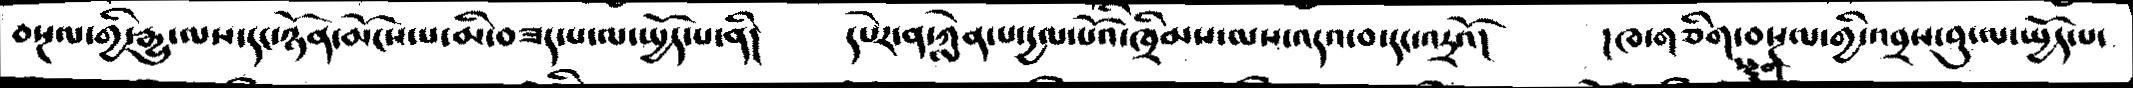བསྔལ་གྱི་རྒྱུ་ལས་དང་ཉོན་མོངས་པ་མི་བཟད་པ་ལ་སྤྱོད་པ་ནི།   དཔེར་ན་ཀླེན་པ་དྱལ་པོའི་ཁྲིམས་ལས་འདའ་བ་དང་འདྲའོ།   །ཁ་གཅིག་སྡུག་བསྔལ་གྱི་འབྲས་བུ་ལ་སྤྱོད་པ་
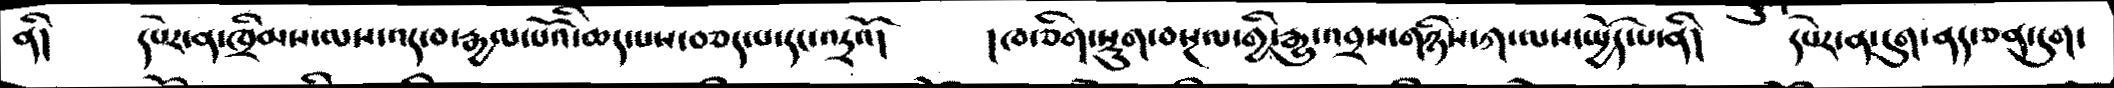ནི།   དཔེར་ན་ཁྲིམས་ལས་འད་བ་རྒྱལ་པོའི་ཆད་པས་བཅད་པ་དང་འདྲའོ།   །ཁ་ཅིག་སྡུག་བསྔལ་གྱི་རྒྱུ་འབྲས་གཉིས་ཀ་ལས་སྤྱོད་པ་ནི།   དཔེར་ན་དུག་ནད་ཅན་དུག་
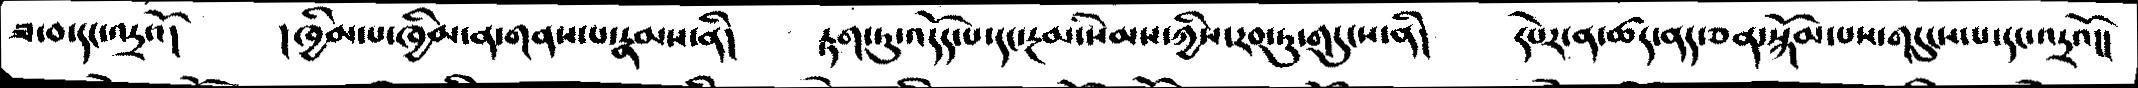ཟ་བ་དང་འདྲའོ།   །ཁྱིམ་པ་ཁྱིམ་ན་གནས་པ་རྣམས་ནི།   རྟག་ཏུ་འདོད་པ་དང་རྔམ་སེམས་ཀྱིས་རབ་ཏུ་གདུངས་ནི།   དཔེར་ན་ཚད་ནད་ཅན་སྐོམ་པས་གདུངས་པ་དང་འདྲའོ།།
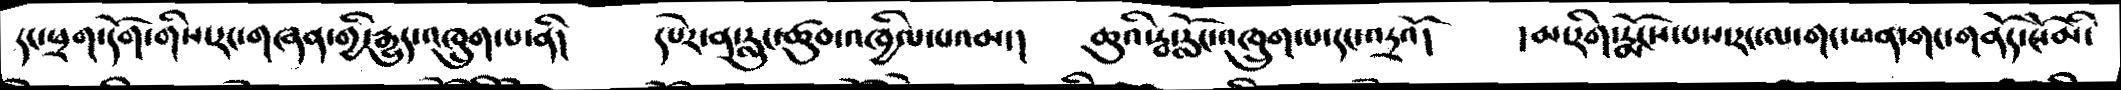དང་ཕྲག་དོག་གིས་རང་གཞན་གྱི་རྒྱུད་འཁྲུག་པ་ནི།   དཔེར་ན་རླུང་ཚུབ་འཁྱིལ་པའམ་།    ཆུའི་རྦ་རློང་འཁྲུག་པ་དང་འདྲའོ།    །མ་རིག་རྨོངས་པས་རང་ལ་གང་ཕན་གང་གནོད་ངོ་མི་
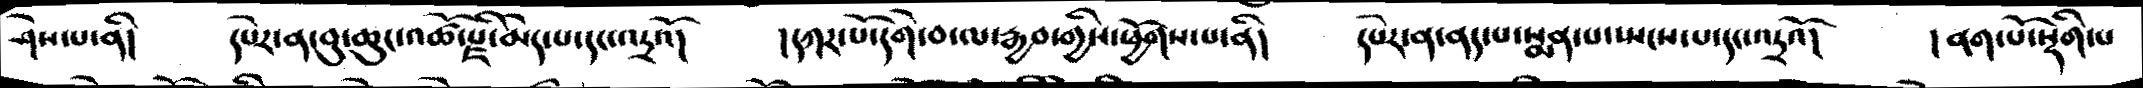ཤེས་པ་ནི།    དཔེར་ན་བུ་ཆུང་འཚོ་རྫི་མེད་པ་དང་འདྲའོ།   །དཀར་པོ་དགེ་བ་ལ་རྒྱབ་གྱིས་ཕྱོགས་པ་ནི།   དཔེར་ན་ནད་པ་སྨན་པ་སྤངས་པ་དང་འདྲའོ།    །ནག་པོ་སྡིག་པ་
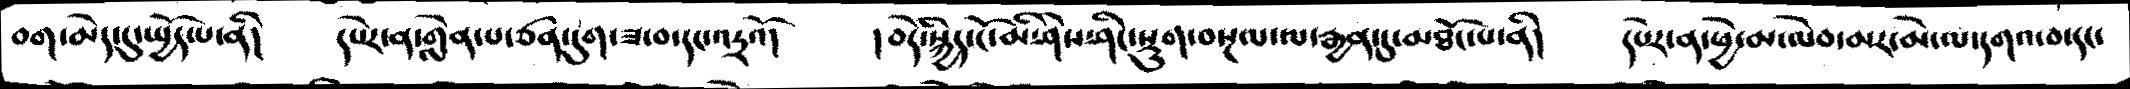བག་མེད་དུ་སྤྱོད་པ་ནི།    དཔེར་ན་གླེན་པ་ཙན་དུག་ཟ་བ་དང་འདྲའོ།   །བདེ་སྐྱིད་ངོ་མི་ཤེས་ཤིང་སྡུག་བསྔལ་ལ་རྒྱབ་དུ་མཐོང་པ་ནི།    དཔེར་ན་ཕྱེ་མ་ལེབ་མར་མེ་ལ་དགའ་བ་དང་
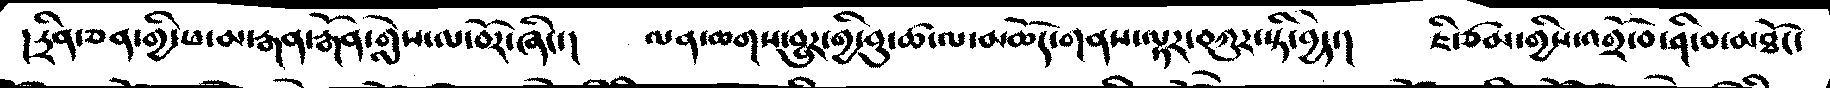།དྲིན་ཅན་གྱི་ཕ་མ་རྒན་རྒོན་གླེས་ལ་བོར་ཞིང་།   ལན་ཆགས་བྱུར་གྱི་བུ་ཚ་ལ་མཆོད་གནས་ལྟར་བཀུར་སྟི་བྱེད་།   ཇི་ཙམ་གྱིས་འགྲོ་བ་ཤི་བ་མཐོང་
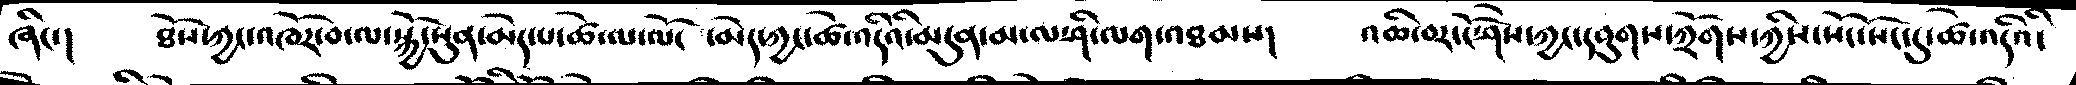ཞིང་།   ཐོས་ཀྱང་འཁོར་བ་ལ་སྐྱོ་སུན་མེད་པ་ཚེ་ལ་ལོང ་མེད་ཀྱང་ཚེ་འདིའི་མདུན་མ་ལ་ཤི་ལག་འཐམས།   འཆི་བར་ངོ་ཤེས་ཀྱང་དབུགས་ཀྲོགས་ཀྱིས་སོང་སོང་དུ་ཚེ་འདིའི་
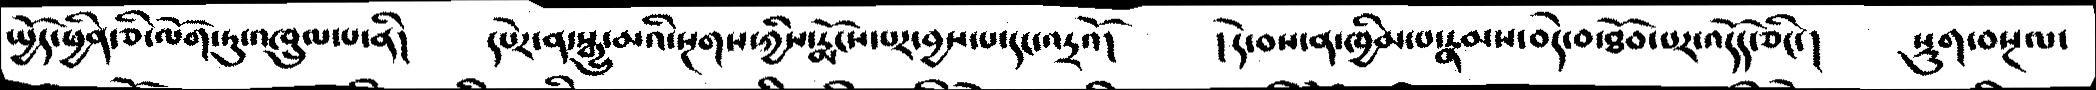སྤྱོད་ཕྱིན་ཅི་ལོག་ཏུ་འཁྲུལ་པ་ནི།   དཔེར་ན་སྒྱུ་མའི་སྔགས་ཀྱིས་རྨོངས་པར་བྱས་པ་དང་འདྲའོ།   །དེ་བས་ན་ཁྱིམ་པ་རྣམས་བདེ་བ་ཐོབ་པར་འདོད་ཅིང་།   སྡུག་བསྔལ་
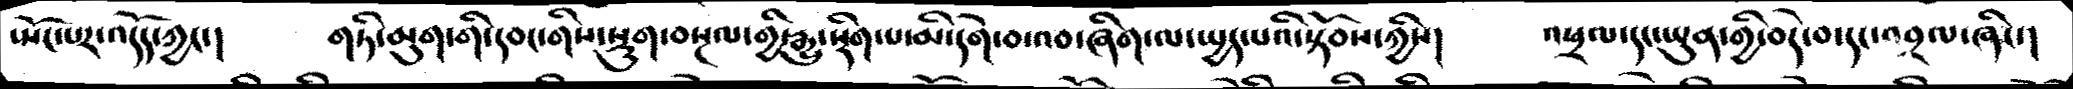སྤོང་པར་འདོད་ཀྱང་།   གཏི་མུག་གི་དབང་གིས་སྡུག་བསྔལ་གྱི་རྒྱུ་སྡིག་པ་མི་དགེ་བ་འབ་ཞིག་ལ་སྤྱད་པའི་སྟོབས་ཀྱིས།   འཕྲལ་དང་ཡུན་གྱི་བདེ་བ་དང་འབྲལ་ཞིང་།
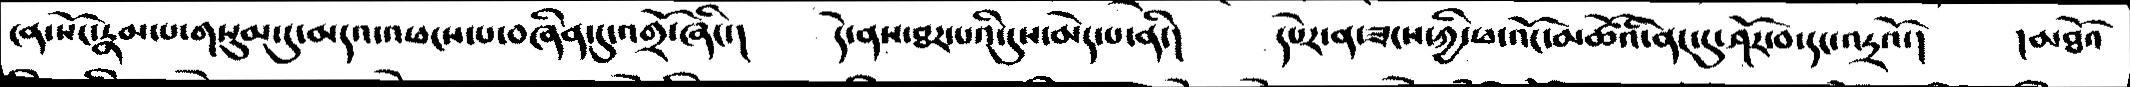ངན་སོང་རྣམ་པ་གསུམ་དུ་མདའ་འཕངས་པ་བཞིན་དུ་འགྲོ་ཞིང་།     དེ་ནས་ཐར་པའི་དུས་མེད་པ་ནི་།   དཔེར་ན་ཟངས་ཀྱི་ཕ་འོང་མཚོའི་ནང་དུ་ཤོར་བ་དང་འདྲའོ་།   ། མཐོའ
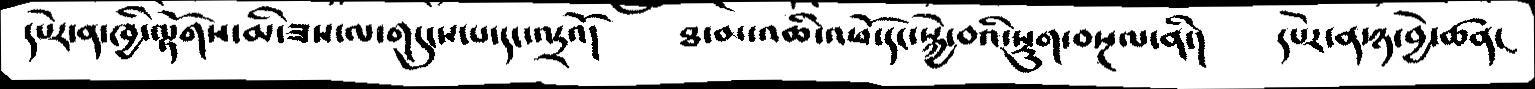དཔེར་ན་ཁྱི་ལྟོགས་མི་ཟས་ལ་གདུངས་པ་དང་འདྲའོ།     ཐ་མ་འཆི་འཕོ་དང་སྐྱེ་བའི་སྡུག་བསྔལ་ནི་།    དཔེར་ན་ཉ་བྱེ་ཚན་
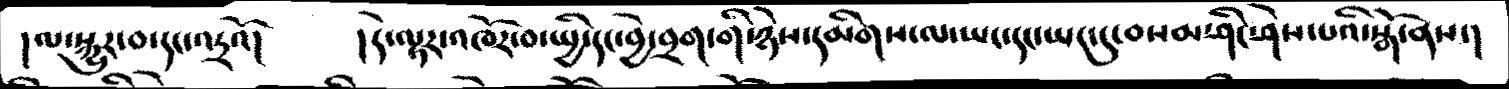།ལ་སྐྱུར་བ་དང་འདྲའོ།     །དེ་ལྟར་འཁོར་བ་སྤྱི་དང་བྱེ་བྲག་གི་ཉེས་དམིགས་ལ་ཡང་དང་ཡང་དུ་བསམ་ཤིང་ཤེས་པའི་སྒོ་ནས་།
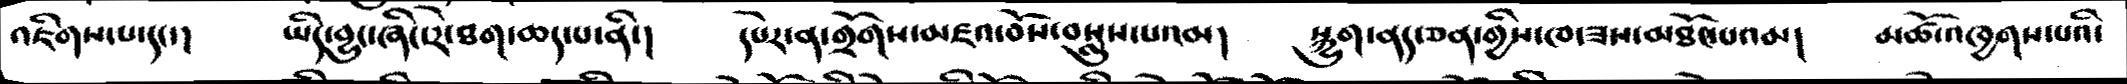འཇིགས་པ་དང་།    ཡིད་བྱུང་ཞིང་རེ་ཐག་ཆད་པ་ནི་།    དཔེར་ན་གྲོགས་མཛའ་བོས་བསླུས་པའམ།     སྐྱུག་ནད་ཅན་གྱིས་ཁ་ཟས་མཐོང་པའམ།    མཚོ་འཁྱགས་པའི་
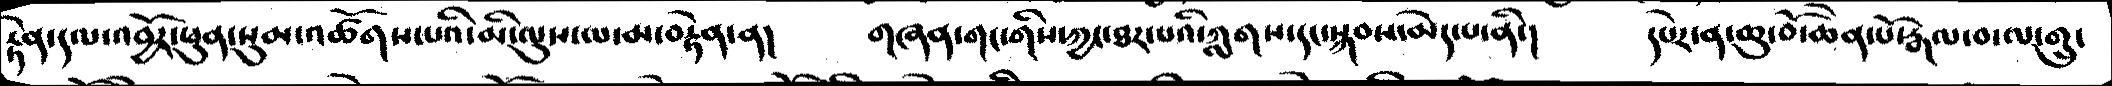རྟེན་དལ་འབྱོར་ཕུན་སུམ་འཚོགས་པའི་མི་ལུས་ལ་མ་བརྟེན་ན།   གཞན་གང་གིས་ཀྱང་ཐར་པའི་ཀླགས་དང་སྐབས་མེད་པ་ནི་།  དཔེར་ན་ཆུ་བོ་ཆེན་པོ་རྒལ་བ་ལ་གྲུ་
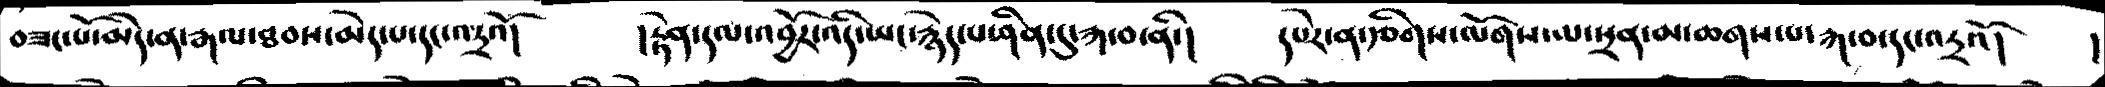བཟང་པོ་མེད་ན་རྒལ་ཐབས་མེད་པ་དང་འདྲའོ།   །རྟེན་དལ་འབྱོར་འདི་ཡང་རྙེད་པ་ཤིན་དུ་རྐ་བ་ནི་།   དཔེར་ན་རྩིགས་ལོགས་ལ་དྲན་མ་ཆགས་པ་རྐ་བ་དང་འདྲའོ།  །
